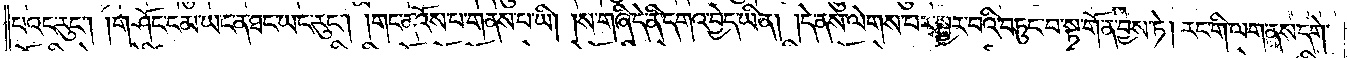པའང་རུང༌། །གཤོང་ངམ་ཡང་ན་ཐང་ཡང་རུང༌། །གང་ན་འོས་པ་གནས་པ་ཡི། །ས་གཞི་དེ་ནི་དགའ་བྱེད་ཡིན། །དེ་ནས་ལེགས་པར་སྦྱར་བའི་བཏུང་བ་སྟ་གོན་བྱས་ཏེ། རང་གི་ལག་ནས་དགེ་
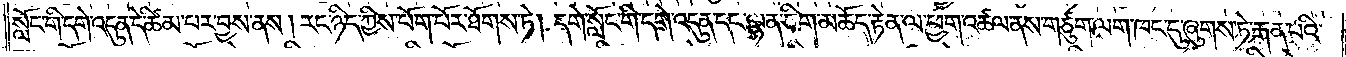སློང་གི་དགེ་འདུན་དེ་ཚིམ་པར་བྱས་ནས། རང་ཉིད་ཀྱིས་པོག་པོར་ཐོགས་ཏེ། དགེ་སློང་གི་དགེ་འདུན་དང་ལྷན་ཅིག་མཆོད་རྟེན་ལ་ཕྱག་འཚལ་ནས་གཙུག་ལག་ཁང་དུ་ཞུགས་ཏེ་རྒན་པའི་
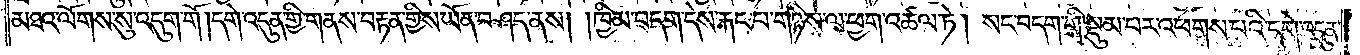མཐའ་ལོགས་སུ་འདུག་གོ །དགེ་འདུན་གྱི་གནས་བརྟན་གྱིས་ཡོན་བཤད་ནས། །ཁྱིམ་བདག་དེས་རྐང་པ་གཉིས་ལ་ཕྱག་འཚལ་ཏེ། སང་བདག་གི་སྡུམ་པར་འཕགས་པའི་དགེ་འདུན་
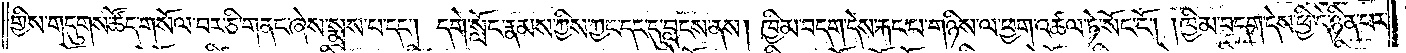གྱིས་གདུགས་ཚོད་གསོལ་བར་ཅི་གནང་ཞེས་སྨྲས་པ་དང༌། དགེ་སློང་རྣམས་ཀྱིས་ཀྱང་དང་དུ་བླངས་ནས། ཁྱིམ་བདག་དེས་རྐང་པ་གཉིས་ལ་ཕྱག་འཚལ་ཏེ་སོང་ངོ༌། །ཁྱིམ་བདག་དེས་ཕྱི་དེ་ཉིན་པར་
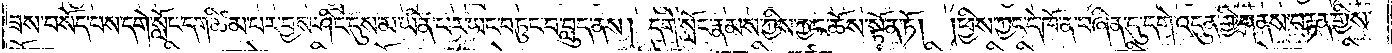ཟས་བསོད་པས་དགེ་སློང་དག་ཚིམ་པར་བྱས་ཤིང་དུས་མ་ཡིན་པར་ཡང་བཏུང་བ་བླུད་ནས། དགེ་སློང་རྣམས་ཀྱིས་ཀྱང་ཆོས་སྟོན་ཏོ། །ཕྱིས་ཀྱང་དེ་ཁོ་ན་བཞིན་དུ་དགེ་འདུན་གྱི་གནས་བརྟན་གྱིས་
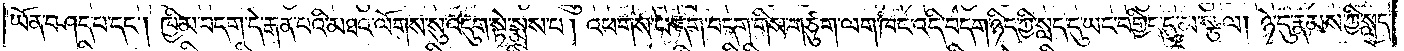ཡོན་བཤད་པ་དང༌། ཁྱིམ་བདག་དེ་རྒན་པའི་མཐའ་ལོགས་སུ་འདུག་སྟེ་སྨྲས་པ། འཕགས་པ་དག་བདག་གིས་གཙུག་ལག་ཁང་འདི་བདག་ཉིད་ཀྱི་སླད་དུ་ཡང་བགྱིད་དུ་མ་སྩལ། ཉེ་དུ་རྣམས་ཀྱི་སླད་
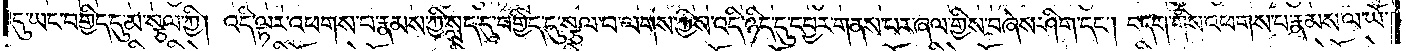དུ་ཡང་བགྱིད་དུ་མ་སྩལ་ཀྱི། འདི་ལྟར་འཕགས་པ་རྣམས་ཀྱི་སླད་དུ་བགྱིད་དུ་སྩལ་པ་ལགས་ཀྱིས་འདི་ཉིད་དུ་དབྱར་གནས་པར་ཞལ་གྱིས་བཞེས་ཤིག་དང༌། བདག་གིས་འཕགས་པ་རྣམས་ལ་ཡོ་
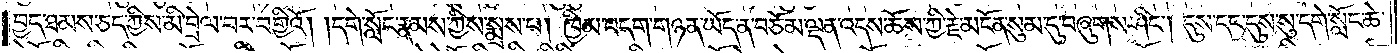བྱད་ཐམས་ཅད་ཀྱིས་མི་བྲེལ་བར་བགྱིའོ། །དགེ་སློང་རྣམས་ཀྱིས་སྨྲས་པ། ཁྱིམ་བདག་གཉན་ཡོད་ན་བཅོམ་ལྡན་འདས་ཆོས་ཀྱི་རྗེ་མངོན་སུམ་དུ་བཞུགས་ཤིང༌། དུས་དང་དུས་སུ་དགེ་སློང་ཆེ་
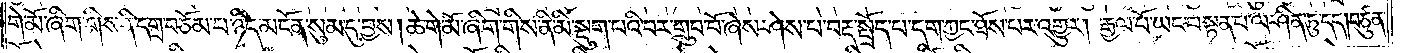གེ་མོ་ཞིག་གིས་ནི་དགྲ་བཅོམ་པ་ཉིད་མངོན་སུམ་དུ་བྱས། ཆེ་གེ་མོ་ཞིག་གིས་ནི་མི་སྡུག་པའི་བར་གྲུབ་བོ་ཞེས་ཤེས་པ་བརྡ་སྤྲོད་པ་དག་ཀྱང་ཐོས་པར་འགྱུར། རྒྱལ་པོ་ཡང་བསྟན་པ་ལ་ཤིན་ཏུ་དད། བཙུན་
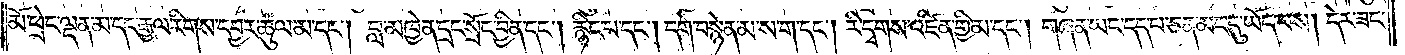མོ་ཕྲེང་ལྡན་མ་དང་རྒྱལ་རིགས་དབྱར་ཚུལ་མ་དང༌། བླ་མཁྱེན་དྲང་སྲོང་བྱིན་དང༌། རྙིང་པ་དང༌། དགེ་བསྙེན་མ་ས་ག་དང༌། རི་དྭགས་འཛིན་གྱི་མ་དང༌། གཞན་ཡང་དད་པ་ཅན་མང་དུ་ཡོད་པས། དེར་ཟང་
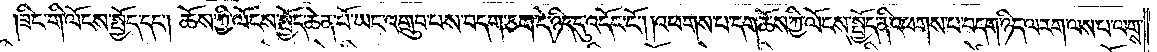ཟིང་གི་ལོངས་སྤྱོད་དང༌། ཆོས་ཀྱི་ལོངས་སྤྱོད་ཆེན་པོ་ཡང་འགྲུབ་པས་བདག་ཅག་དེ་ཉིད་དུ་འདོང་ངོ༌། །འཕགས་པ་དག་ཆོས་ཀྱི་ལོངས་སྤྱོད་ནི་འཕགས་པ་བདག་ཉིད་ལ་རག་ལས་པ་ལགས་
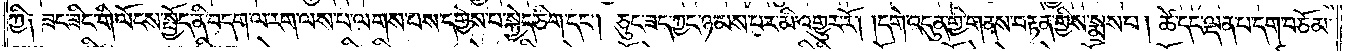ཀྱི། ཟང་ཟིང་གི་ལོངས་སྤྱོད་ནི་བདག་ལ་རག་ལས་པ་ལགས་པས་དགྱེས་པ་སྐྱེད་ཅིག་དང༌། ཅུང་ཟད་ཀྱང་ཉམས་པར་མི་འགྱུར་རོ། །དགེ་འདུན་གྱི་གནས་བརྟན་གྱིས་སྨྲས་པ། ཚེ་དང་ལྡན་པ་དག་བཅོམ་
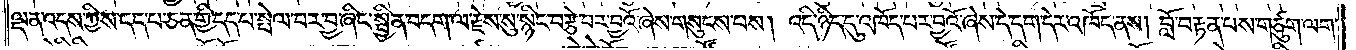ལྡན་འདས་ཀྱིས་དད་པ་ཅན་གྱི་དད་པ་སྤེལ་བར་བྱ་ཞིང་སྦྱིན་བདག་ལ་རྗེས་སུ་སྙིང་བརྩེ་བར་བྱའོ་ཞེས་གསུངས་པས། འདི་ཉིད་དུ་འཁོད་པར་བྱའོ་ཞེས་དེ་དག་དེར་འཁོད་ནས། བློ་བརྟན་པས་གཙུག་ལག་
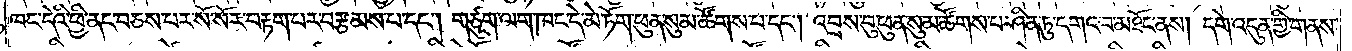ཁང་དེའི་ཕྱི་ནང་བཅས་པར་སོ་སོར་བརྟག་པར་བརྩམས་པ་དང༌། གཙུག་ལག་ཁང་དེ་མེ་ཏོག་ཕུན་སུམ་ཚོགས་པ་དང༌། འབྲས་བུ་ཕུན་སུམ་ཚོགས་པ་ཤིན་ཏུ་དགའ་བ་མཐོང་ནས། དགེ་འདུན་གྱི་གནས་
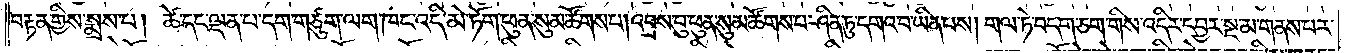བརྟན་གྱིས་སྨྲས་པ། ཚེ་དང་ལྡན་པ་དག་གཙུག་ལག་ཁང་འདི་མེ་ཏོག་ཕུན་སུམ་ཚོགས་པ།འབྲས་བུ་ཕུན་སུམ་ཚོགས་པ་ཤིན་ཏུ་དགའ་བ་ཡིན་པས། གལ་ཏེ་བདག་ཅག་གིས་འདིར་དབྱར་སྔ་མ་གནས་པར་
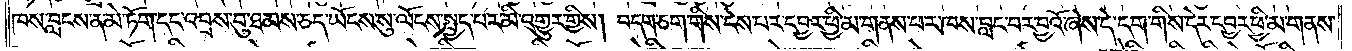ཁས་བླངས་ན་མེ་ཏོག་དང་འབྲས་བུ་ཐམས་ཅད་ཡོངས་སུ་ལོངས་སྤྱད་པར་མི་འགྱུར་གྱིས། བདག་ཅག་གིས་ངེས་པར་དབྱར་ཕྱི་མ་གནས་པར་ཁས་བླང་བར་བྱའོ་ཞེས་དེ་དག་གིས་དེར་དབྱར་ཕྱི་མ་གནས་
